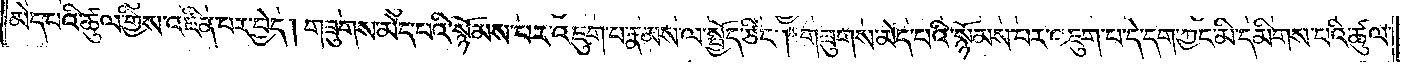མེད་པའི་ཚུལ་གྱིས་འཛིན་པར་བྱེད། གཟུགས་མེད་པའི་སྙོམས་པར་འཇུག་པ་རྣམས་ལ་སྤྱོད་ཅིང༌། གཟུགས་མེད་པའི་སྙོམས་པར་འཇུག་པ་དེ་དག་ཀྱང་མི་དམིགས་པའི་ཚུལ་
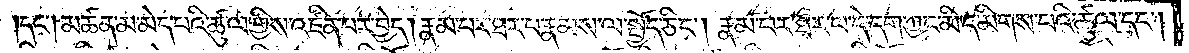དང༌། མཚན་མ་མེད་པའི་ཚུལ་གྱིས་འཛིན་པར་བྱེད། རྣམ་པར་ཐར་པ་རྣམས་ལ་སྤྱོད་ཅིང༌། རྣམ་པར་ཐར་པ་དེ་དག་ཀྱང་མི་དམིགས་པའི་ཚུལ་དང༌།
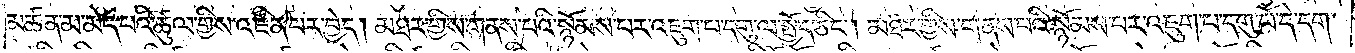མཚན་མ་མེད་པའི་ཚུལ་གྱིས་འཛིན་པར་བྱེད། མཐར་གྱིས་གནས་པའི་སྙོམས་པར་འཇུག་པ་དགུ་ལ་སྤྱོད་ཅིང༌། མཐར་གྱིས་གནས་པའི་སྙོམས་པར་འཇུག་པ་དགུ་པོ་དེ་དག་
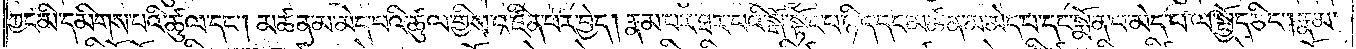ཀྱང་མི་དམིགས་པའི་ཚུལ་དང༌། མཚན་མ་མེད་པའི་ཚུལ་གྱིས་འཛིན་པར་བྱེད། རྣམ་པར་ཐར་པའི་སྒོ་སྟོང་པ་ཉིད་དང་མཚན་མ་མེད་པ་དང་སྨོན་པ་མེད་པ་ལ་སྤྱོད་ཅིང༌། རྣམ་
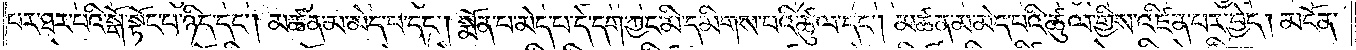པར་ཐར་བའི་སྒོ་སྟོང་པ་ཉིད་དང༌། མཚན་མ་མེད་པ་དང༌། སྨོན་པ་མེད་པ་དེ་དག་ཀྱང་མི་དམིགས་པའི་ཚུལ་དང༌། མཚན་མ་མེད་པའི་ཚུལ་གྱིས་འཛིན་པར་བྱེད། མངོན་
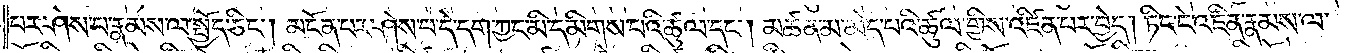པར་ཤེས་པ་རྣམས་ལ་སྤྱོད་ཅིང༌། མངོན་པར་ཤེས་པ་དེ་དག་ཀྱང་མི་དམིགས་པའི་ཚུལ་དང༌། མཚན་མ་མེད་པའི་ཚུལ་གྱིས་འཛིན་པར་བྱེད། ཏིང་ངེ་འཛིན་རྣམས་ལ་
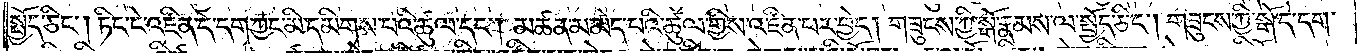སྤྱོད་ཅིང༌། ཏིང་ངེ་འཛིན་དེ་དག་ཀྱང་མི་དམིགས་པའི་ཚུལ་དང༌། མཚན་མ་མེད་པའི་ཚུལ་གྱིས་འཛིན་པར་བྱེད། གཟུངས་ཀྱི་སྒོ་རྣམས་ལ་སྤྱོད་ཅིང༌། གཟུངས་ཀྱི་སྒོ་དེ་དག་
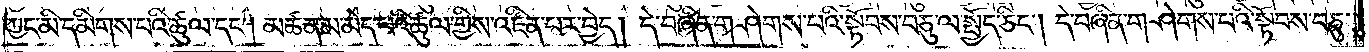ཀྱང་མི་དམིགས་པའི་ཚུལ་དང༌། མཚན་མ་མེད་པའི་ཚུལ་གྱིས་འཛིན་པར་བྱེད། དེ་བཞིན་གཤེགས་པའི་སྟོབས་བཅུ་ལ་སྤྱོད་ཅིང༌། དེ་བཞིན་གཤེགས་པའི་སྟོབས་བཅུ་
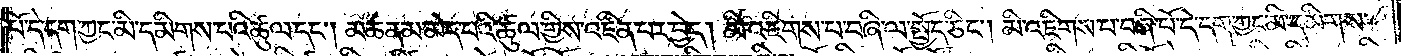པོ་དེ་དག་ཀྱང་མི་དམིགས་པའི་ཚུལ་དང༌། མཚན་མ་མེད་པའི་ཚུལ་གྱིས་འཛིན་པར་བྱེད། མི་འཇིགས་པ་བཞི་ལ་སྤྱོད་ཅིང༌། མི་འཇིགས་པ་བཞི་པོ་དེ་དག་ཀྱང་མི་དམིགས་
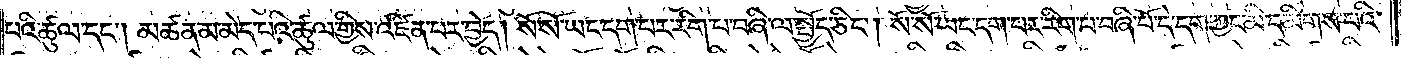པའི་ཚུལ་དང༌། མཚན་མ་མེད་པའི་ཚུལ་གྱིས་འཛིན་པར་བྱེད། སོ་སོ་ཡང་དག་པར་རིག་པ་བཞི་ལ་སྤྱོད་ཅིང༌། སོ་སོ་ཡང་དག་པར་རིག་པ་བཞི་པོ་དེ་དག་ཀྱང་མི་དམིགས་པའི་
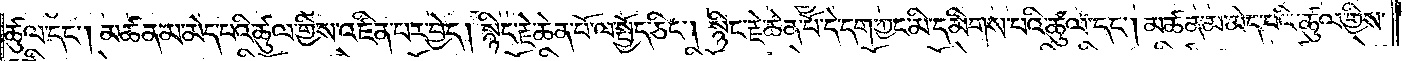ཚུལ་དང༌། མཚན་མ་མེད་པའི་ཚུལ་གྱིས་འཛིན་པར་བྱེད། སྙིང་རྗེ་ཆེན་པོ་ལ་སྤྱོད་ཅིང༌། སྙིང་རྗེ་ཆེན་པོ་དེ་དག་ཀྱང་མི་དམིགས་པའི་ཚུལ་དང༌། མཚན་མ་མེད་པའི་ཚུལ་གྱིས་
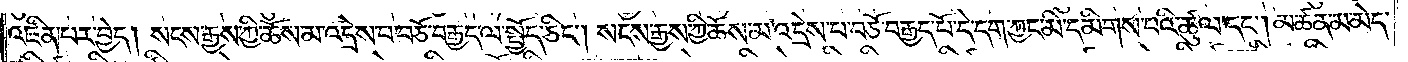འཛིན་པར་བྱེད། སངས་རྒྱས་ཀྱི་ཆོས་མ་འདྲེས་པ་བཅོ་བརྒྱད་ལ་སྤྱོད་ཅིང༌། སངས་རྒྱས་ཀྱི་ཆོས་མ་འདྲེས་པ་བཅོ་བརྒྱད་པོ་དེ་དག་ཀྱང་མི་དམིགས་པའི་ཚུལ་དང༌། མཚན་མ་མེད་
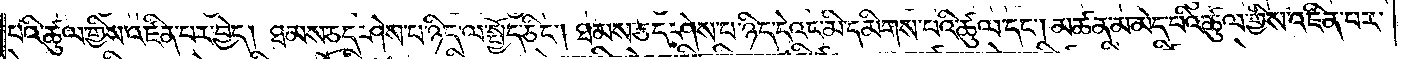པའི་ཚུལ་གྱིས་འཛིན་པར་བྱེད། ཐམས་ཅད་ཤེས་པ་ཉིད་ལ་སྤྱོད་ཅིང༌། ཐམས་ཅད་ཤེས་པ་ཉིད་དེའང་མི་དམིགས་པའི་ཚུལ་དང༌། མཚན་མ་མེད་པའི་ཚུལ་གྱིས་འཛིན་པར་
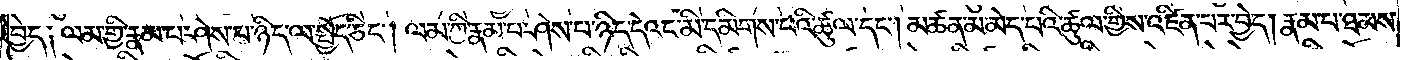བྱེད༑ ལམ་གྱི་རྣམ་པ་ཤེས་པ་ཉིད་ལ་སྤྱོད་ཅིང༌། ལམ་གྱི་རྣམ་པ་ཤེས་པ་ཉིད་དེའང་མི་དམིགས་པའི་ཚུལ་དང༌། མཚན་མ་མེད་པའི་ཚུལ་གྱིས་འཛིན་པར་བྱེད། རྣམ་པ་ཐམས་
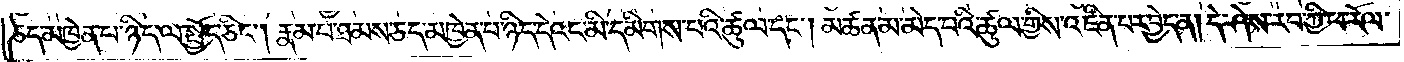ཅད་མཁྱེན་པ་ཉིད་ལ་སྤྱོད་ཅིང༌། རྣམ་པ་ཐམས་ཅད་མཁྱེན་པ་ཉིད་དེའང་མི་དམིགས་པའི་ཚུལ་དང༌། མཚན་མ་མེད་པའི་ཚུལ་གྱིས་འཛིན་པར་བྱེད་ན། དེ་ཤེས་རབ་ཀྱི་ཕ་རོལ་
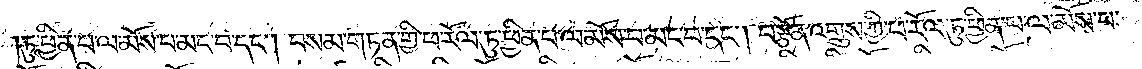ཏུ་ཕྱིན་པ་ལ་མོས་པ་མང་བ་དང༌། བསམ་གཏན་གྱི་ཕ་རོལ་ཏུ་ཕྱིན་པ་ལ་མོས་པ་མང་བ་དང༌། བརྩོན་འགྲུས་ཀྱི་ཕ་རོལ་ཏུ་ཕྱིན་པ་ལ་མོས་པ་
